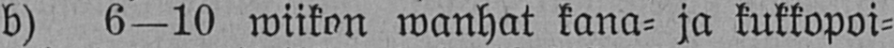b) 6—10 wiikon wanhat kana- ja kukkopoi-
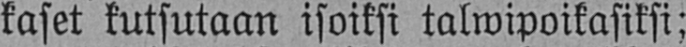kaset kutsutaan isoiksi talwipoikasiksi;
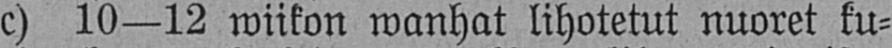c) 10—12 wiikon wanhat lihotetut nuoret ku-
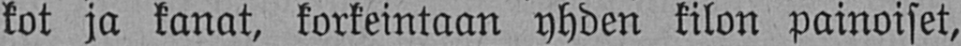kot ja kanat, korkeintaan yhden kilon painoiset,
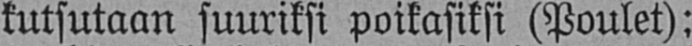kutsutaan suuriksi poikasiksi (Poulet):
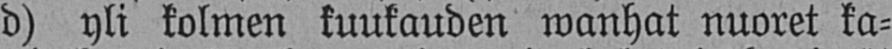d) yli kolmen kuukauden wanhat nuoret ka-
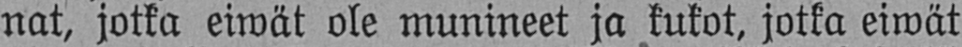nat, jotka eiwät ole munineet ja kukot, jotka eiwät
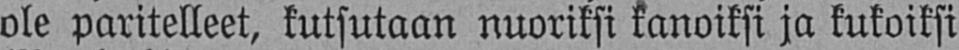ole paritelleet, kutsutaan nuoriksi kanoiksi ja kukoiksi
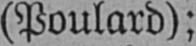(Poulard);
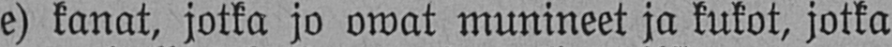e) kanat, jotka jo owat munineet ja kukot, jotka
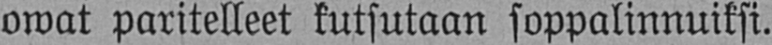owat paritelleet kutsutaan soppalinnuiksi.
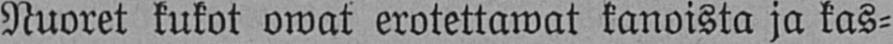Nuoret kukot owat erotettawat kanoista ja kas-
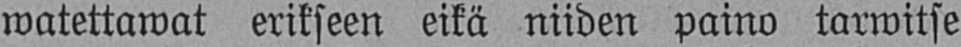watettawat erikseen eikä niiden paino tarwitse
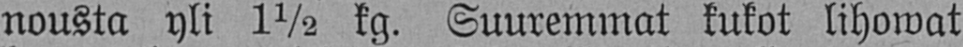nousta yli 1½ kg. Suuremmat kukot lihowat
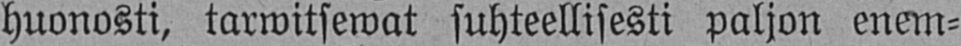huonosti, tarwitsewat suhteellisesti paljon enem-
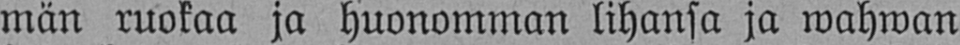män ruokaa ja huonomman lihansa ja wahwan
